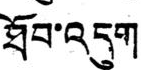ཐོབ་འདུག
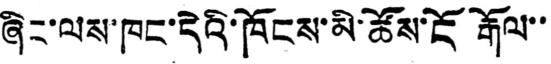ཞིང་ལས་ཁང་དེའི་ཁོངས་མི་ཚོས་ངོ རྒོལ་་
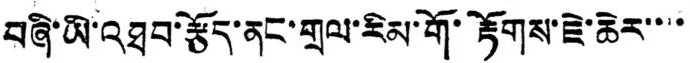བཞི་ཡི་འཐབ་རྩོད་ནང་གྲལ་རིམ་གོ་རྟོགས་ཇེ་ཆེར་་་་
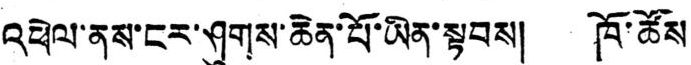འཕེལ་ནས་ངར་ཤུགས་ཆེན་པོ་ཡིན་སྟབས། ཁོ་ཚོས
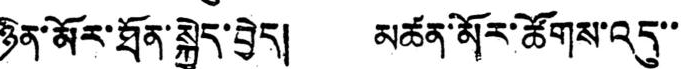ཉིན་མོར་ཐོན་སྐྱེད་བྱེད། མཚན་མོར་ཚོགས་འདུ་་
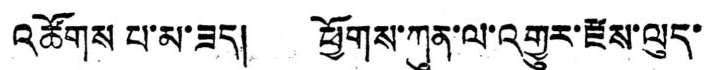འཚོགས པ་མ་ཟད། ཕྱོགས་ཀུན་ལ་འགྱུར་རྫས་ལུད་
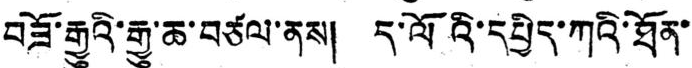བཟོ་རྒྱུའི་རྒྱུ་ཆ་བཙལ་ནས། ད་ལོའི་དཔྱིད་ཀའི་ཐོན་
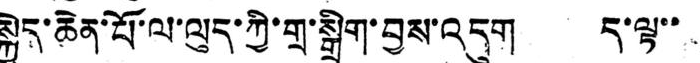སྐྱེད་ཆེན་པོ་ལ་ལུད་ཀྱི་གྲ་སྒྲིག་བྱས་འདུག ད་ལྟ་་
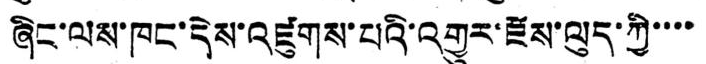ཞིང་ལས་ཁང་དེས་འཛུགས་པའི་འགྱུར་རྫས་ལུད་ཀྱི་་་་
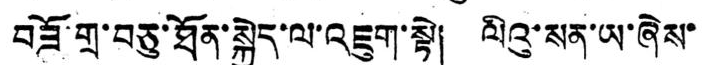བཟོ་གྲ་བཅུ་ཐོན་སྐྱེད་ལ་འཇུག་སྟེ། ལིའུ་སན་ཡ་ཞེས་
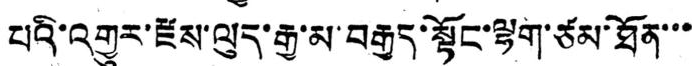པའི་འགྱུར་རྫས་ལུད་རྒྱ་མ་བརྒྱད་སྟོང་ལྷག་ཙམ་ཐོན་་་
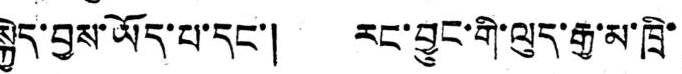སྐྱེད་བྱས་ཡོད་པ་དང་། རང་བྱུང་གི་ལུད་རྒྱ་མ་ཁྲི་
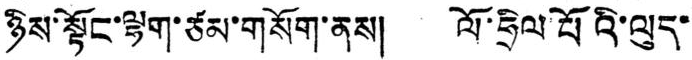ཉིས་སྟོང་ལྷག་ཙམ་གསོག་ནས། ལོ་ཧྲིལ་པོའི་ལུད་
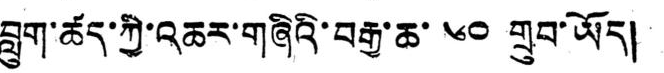བླུག་ཚད་ཀྱི་འཆར་གཞིའི་བརྒྱ་ཆ་ ༦༠ གྲུབ་ཡོད།
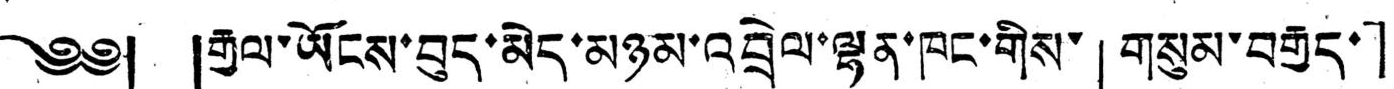༄༅། །རྒྱལ་ཡོངས་བུད་མེད་མཉམ་འབྲེལ་ལྷན་ཁང་གིས་「གསུམ་བརྒྱད་」
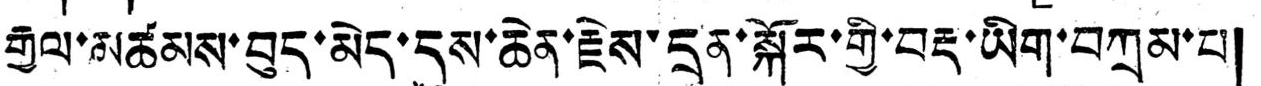རྒྱལ་མཚམས་བུད་མེད་དུས་ཆེན་རྗེས་དྲན་སྐོར་གྱོ་བརྡ་ཡིག་བཀྲམ་པ།
